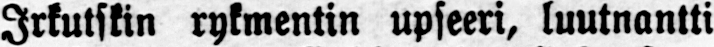Irkutskin rykmentin upseeri, luutnantti
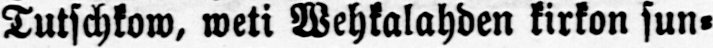Tutschkow, weti Wehkalahden kirkon sun-
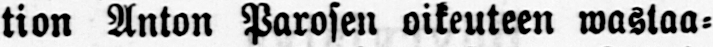tion Anton Parosen oikeuteen wastaa-
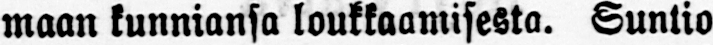maan kunniansa loukkaamisesta. Suntio
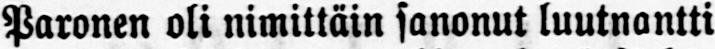Paronen oli nimittäin sanonut luutnantti
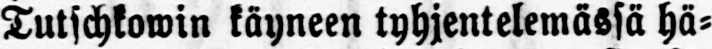Tutschkowin käyneen tyhjentelemässä hä-
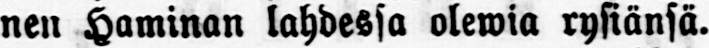nen Haminan lahdessa olewia rysiänsä.
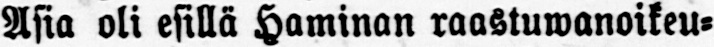Asia oli esillä Haminan raastuwanoikeu-
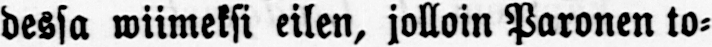dessa wiimeksi eilen, jolloin Paronen to-
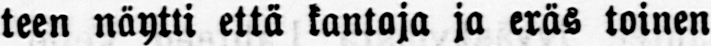teen näytti että kantaja ja eräs toinen
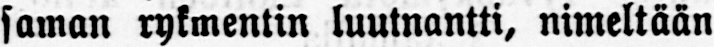saman rykmentin luutnantti, nimeltään
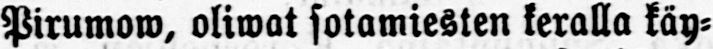Pirumow, oliwat sotamiesten keralla käy-
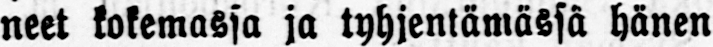neet kokemassa ja tyhjentämässä hänen
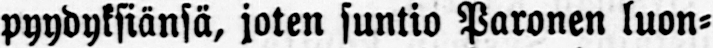pyydyksiänsä, joten suntio Paronen luon-
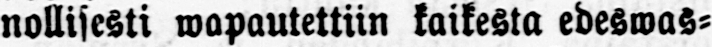nollisesti wapautettiin kaikesta edeswas-
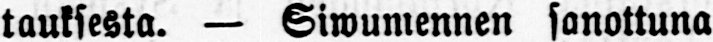tauksesta. — Siwumennen sanottuna
